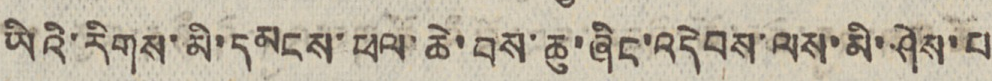ཡིའི་རིགས་མི་དམངས་ཕལ་ཆེ་བས་ཆུ་ཞིང་འདེབས་ལས་མི་ཤེས་པ
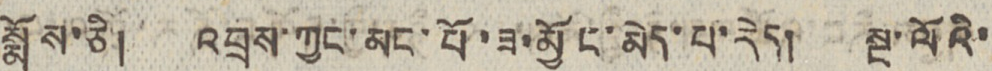སྨོས་ཅི། འབྲས་ཀྱང་མང་པོ་ཟ་མྱོང་མེད་པ་རེད། སྔ་ལོའི་
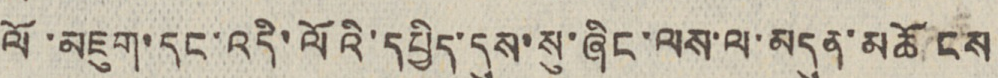ལོ་མཇུག་དང་འདི་ལོའི་དཔྱིད་དུས་སུ་ཞིང་ལས་ལ་མདུན་མཆོངས
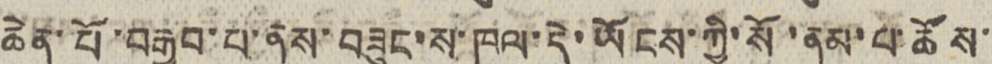ཆེན་པོ་བརྒྱབ་པ་ནས་བཟུང་ས་ཁུལ་དེ་ཡོངས་ཀྱི་སོ་ནམ་པ་ཚོས་
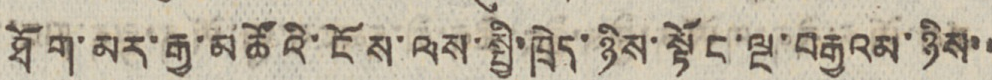ཐོག་མར་རྒྱ་མཚོའི་ངོས་ལས་སྤྱི་ཁྲེད་ཉིས་སྟོང་ལྔ་བརྒྱའམ་ཉིས་་
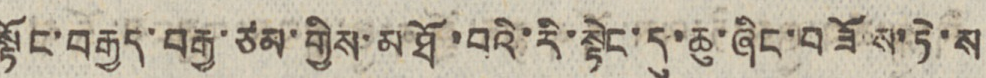སྟོང་བརྒྱད་བརྒྱ་ཙམ་གྱིས་མཐོ་བའི་རི་སྟེང་དུ་ཆུ་ཞིང་བཟོས་ཏེ་ས
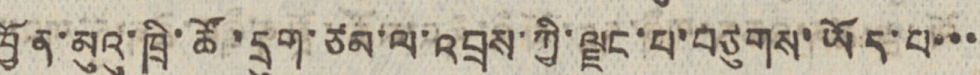ཁྱོན་མུའུ་ཁྲི་ཚོ་དྲུག་ཙམ་ལ་འབྲས་ཀྱི་ལྗང་པ་བཙུགས་ཡོད་པ་་་
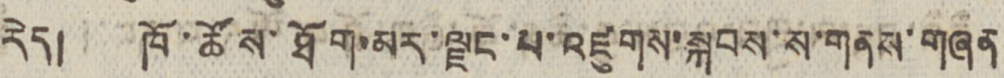རེད། ཁོ་ཚོས་ཐོག་མར་ལྗང་པ་འཛུགས་སྐབས་ས་གནས་གཞན
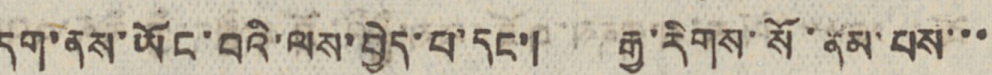དག་ནས་ཡོང་བའི་ལས་བྱེད་པ་དང་། རྒྱ་རིགས་སོ་ནམ་པས་་་
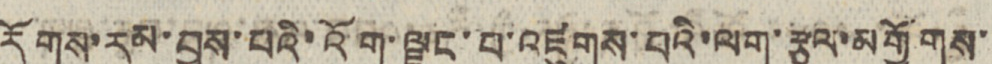རོགས་རམ་བྱས་པའི་འོག་ལྗང་པ་འཛུགས་པའི་ལག་རྩལ་མགྱོགས་
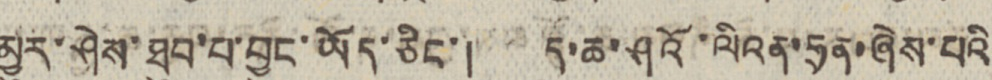མྱུར་ཤེས་ཐུབ་པ་བྱུང་ཡོད་ཅིང་། ད་ཆ་ཤའོ་ལིའན་ཧྲན་ཞེས་པའི
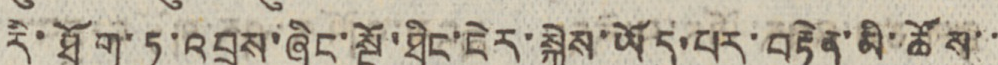རི་ཐོག་ཏུ་འབྲས་ཞིང་སྔོ་ཐིང་ངེར་སྐྱེས་ཡོད་པར་བརྟེན་མི་ཚོས་་
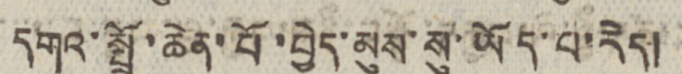དགའ་སྤྲོ་ཆེན་པོ་བྱེད་མུས་སུ་ཡོད་པ་རེད།
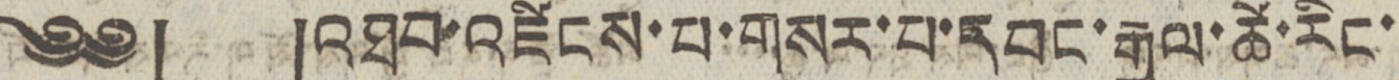༄༅། །འཐབ་འཛིངས་པ་གསར་པ་དབང་རྒྱལ་ཚེ་རིང་
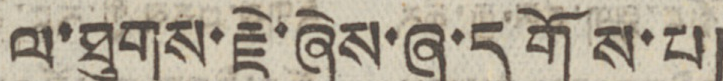ལ་ཐུགས་རྗེ་ཞེས་ཞུ་དགོས་པ།
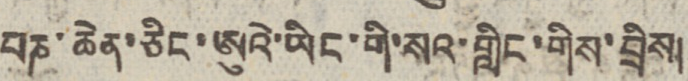པཎ་ཆེན་ཅིང་ཨུའེ་ཡིང་གི་སའ་གླིང་གིས་བྲིས།
